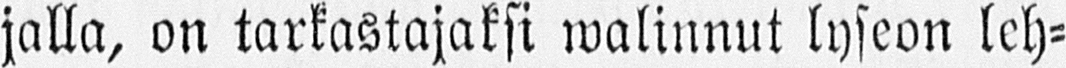jalla, on tarkastajaksi walinnut lyseon leh-
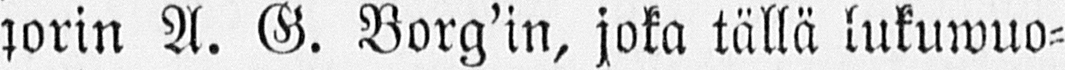torin A. G. Borg'in, joka tällä lukuwuo-
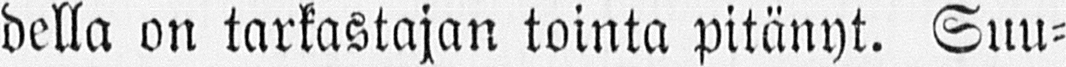della on tarkastajan tointa pitänyt. Suu-
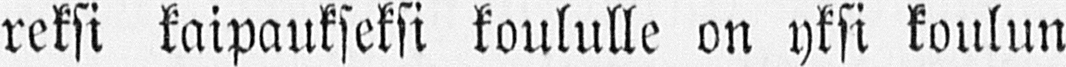reksi kaipaukseksi koululle on yksi koulun
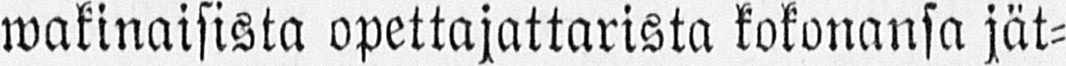wakinaisista opettajattarista kokonansa jät-
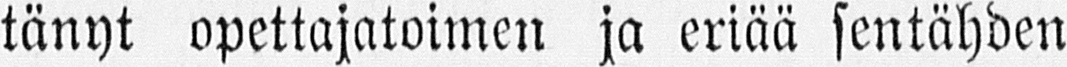tänyt opettajatoimen ja enää sentähden
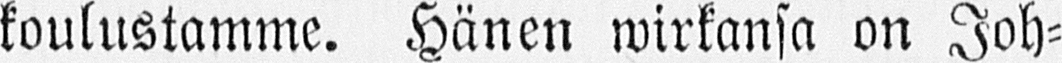koulustamme. Hänen wirkansa on Joh-
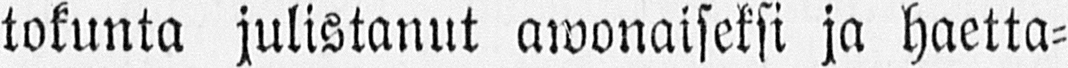tokunta julistanut awonaiseksi ja haetta-
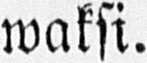waksi.
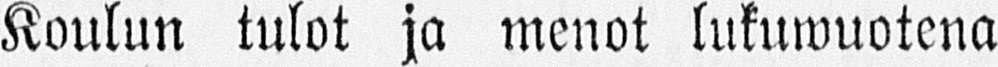Koulun tulot ja menot lukuwuotena
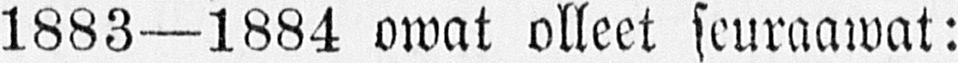1883 —1884 owat olleet seuraawat:
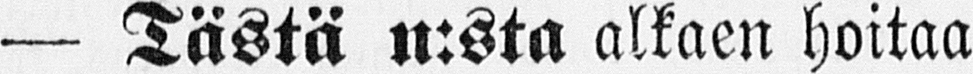— Tästä n:sta alkaen hoitaa
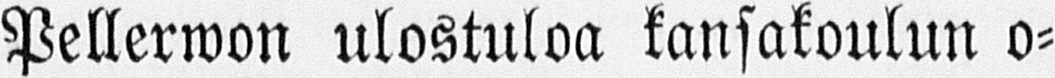Pellerwon ulostuloa kansakoulun o-
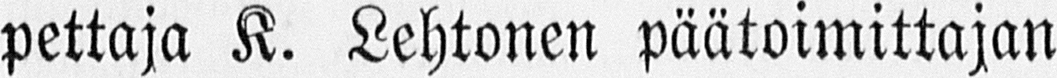pettaja K. Lehtonen päätoimittajan
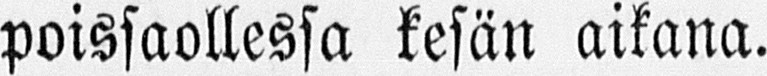poissaollessa kesän aikana.
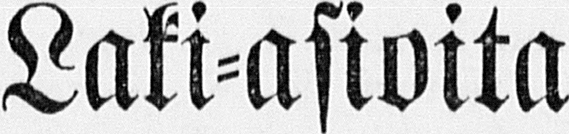Laki-asioita
